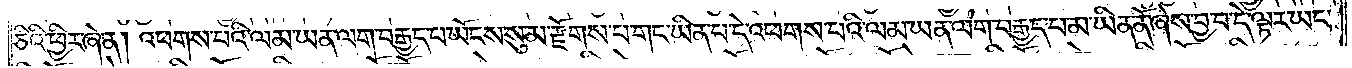ཅིའི་ཕྱིར་ཞེ་ན། འཕགས་པའི་ལམ་ཡན་ལག་བརྒྱད་པ་ཡོངས་སུ་མ་རྫོགས་པ་གང་ཡིན་པ་དེ་འཕགས་པའི་ལམ་ཡན་ལག་བརྒྱད་པ་མ་ཡིན་ནོ་ཞེས་བྱ་བ་དེ་ལྟར་ཡང་
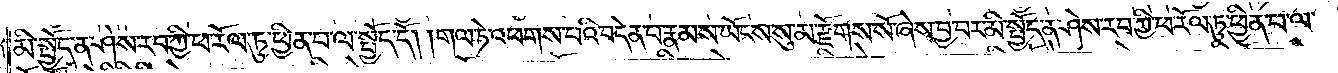མི་སྤྱོད་ན་ཤེས་རབ་ཀྱི་ཕ་རོལ་ཏུ་ཕྱིན་པ་ལ་སྤྱོད་དོ། །གལ་ཏེ་འཕགས་པའི་བདེན་པ་རྣམས་ཡོངས་སུ་མ་རྫོགས་སོ་ཞེས་བྱ་བར་མི་སྤྱོད་ན་ཤེས་རབ་ཀྱི་ཕ་རོལ་ཏུ་ཕྱིན་པ་ལ་
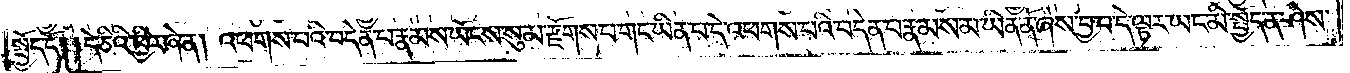སྤྱོད་དོ། །དེ་ཅིའི་ཕྱིར་ཞེ་ན། འཕགས་པའི་བདེན་པ་རྣམས་ཡོངས་སུ་མ་རྫོགས་པ་གང་ཡིན་པ་དེ་འཕགས་པའི་བདེན་པ་རྣམས་མ་ཡིན་ནོ་ཞེས་བྱ་བ་དེ་ལྟར་ཡང་མི་སྤྱོད་ན་ཤེས་
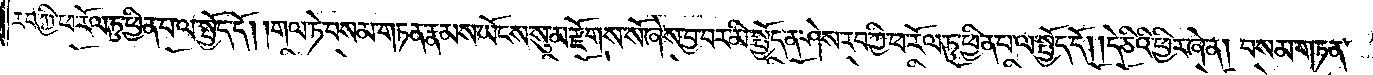རབ་ཀྱི་ཕ་རོལ་ཏུ་ཕྱིན་པ་ལ་སྤྱོད་དོ། །གལ་ཏེ་བསམ་གཏན་རྣམས་ཡོངས་སུ་མ་རྫོགས་སོ་ཞེས་བྱ་བར་མི་སྤྱོད་ན་ཤེས་རབ་ཀྱི་ཕ་རོལ་ཏུ་ཕྱིན་པ་ལ་སྤྱོད་དོ། །དེ་ཅིའི་ཕྱིར་ཞེ་ན། བསམ་གཏན་
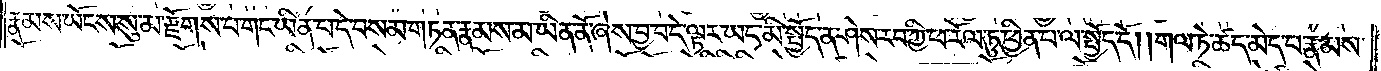རྣམས་ཡོངས་སུ་མ་རྫོགས་པ་གང་ཡིན་པ་དེ་བསམ་གཏན་རྣམས་མ་ཡིན་ནོ་ཞེས་བྱ་བ་དེ་ལྟར་ཡང་མི་སྤྱོད་ན་ཤེས་རབ་ཀྱི་ཕ་རོལ་ཏུ་ཕྱིན་པ་ལ་སྤྱོད་དོ། །གལ་ཏེ་ཚད་མེད་པ་རྣམས་
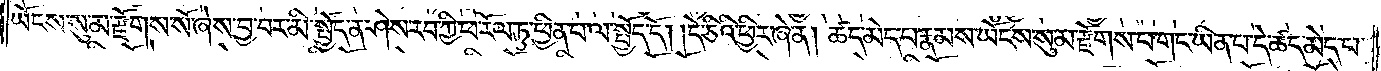ཡོངས་སུ་མ་རྫོགས་སོ་ཞེས་བྱ་བར་མི་སྤྱོད་ན་ཤེས་རབ་ཀྱི་ཕ་རོལ་ཏུ་ཕྱིན་པ་ལ་སྤྱོད་དོ། །དེ་ཅིའི་ཕྱིར་ཞེ་ན། ཚད་མེད་པ་རྣམས་ཡོངས་སུ་མ་རྫོགས་པ་གང་ཡིན་པ་དེ་ཚད་མེད་པ་
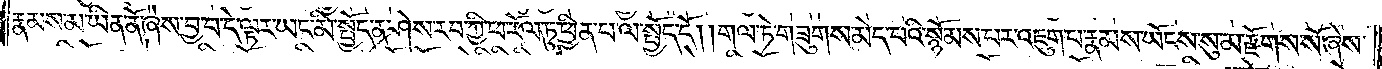རྣམས་མ་ཡིན་ནོ་ཞེས་བྱ་བ་དེ་ལྟར་ཡང་མི་སྤྱོད་ན་ཤེས་རབ་ཀྱི་ཕ་རོལ་ཏུ་ཕྱིན་པ་ལ་སྤྱོད་དོ། །གལ་ཏེ་གཟུགས་མེད་པའི་སྙོམས་པར་འཇུག་པ་རྣམས་ཡོངས་སུ་མ་རྫོགས་སོ་ཞེས་
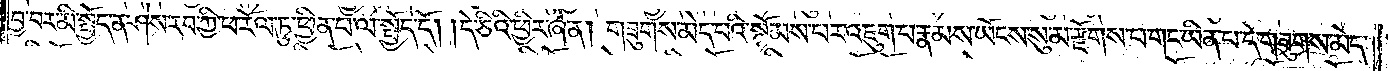བྱ་བར་མི་སྤྱོད་ན་ཤེས་རབ་ཀྱི་ཕ་རོལ་ཏུ་ཕྱིན་པ་ལ་སྤྱོད་དོ། །དེ་ཅིའི་ཕྱིར་ཞེ་ན། གཟུགས་མེད་པའི་སྙོམས་པར་འཇུག་པ་རྣམས་ཡོངས་སུ་མ་རྫོགས་པ་གང་ཡིན་པ་དེ་གཟུགས་མེད་
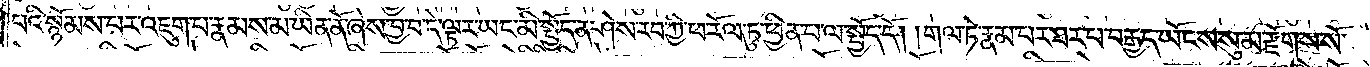པའི་སྙོམས་པར་འཇུག་པ་རྣམས་མ་ཡིན་ནོ་ཞེས་བྱ་བ་དེ་ལྟར་ཡང་མི་སྤྱོད་ན་ཤེས་རབ་ཀྱི་ཕ་རོལ་ཏུ་ཕྱིན་པ་ལ་སྤྱོད་དོ། །གལ་ཏེ་རྣམ་པར་ཐར་པ་བརྒྱད་ཡོངས་སུ་མ་རྫོགས་སོ་
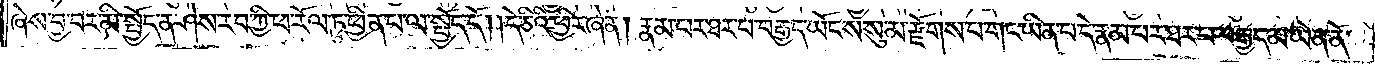ཞེས་བྱ་བར་མི་སྤྱོད་ན་ཤེས་རབ་ཀྱི་ཕ་རོལ་ཏུ་ཕྱིན་པ་ལ་སྤྱོད་དོ། །དེ་ཅིའི་ཕྱིར་ཞེ་ན། རྣམ་པར་ཐར་པ་བརྒྱད་ཡོངས་སུ་མ་རྫོགས་པ་གང་ཡིན་པ་དེ་རྣམ་པར་ཐར་པ་བརྒྱད་མ་ཡིན་ནོ་
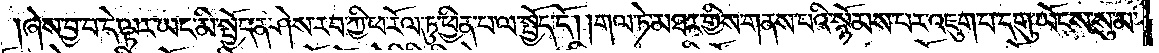ཞེས་བྱ་བ་དེ་ལྟར་ཡང་མི་སྤྱོད་ན་ཤེས་རབ་ཀྱི་ཕ་རོལ་ཏུ་ཕྱིན་པ་ལ་སྤྱོད་དོ། །གལ་ཏེ་མཐར་གྱིས་གནས་པའི་སྙོམས་པར་འཇུག་པ་དགུ་ཡོངས་སུ་མ་
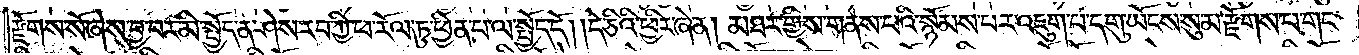རྫོགས་སོ་ཞེས་བྱ་བར་མི་སྤྱོད་ན་ཤེས་རབ་ཀྱི་ཕ་རོལ་ཏུ་ཕྱིན་པ་ལ་སྤྱོད་དོ། །དེ་ཅིའི་ཕྱིར་ཞེ་ན། མཐར་གྱིས་གནས་པའི་སྙོམས་པར་འཇུག་པ་དགུ་ཡོངས་སུ་མ་རྫོགས་པ་གང་
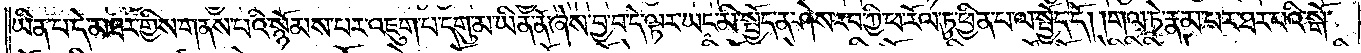ཡིན་པ་དེ་མཐར་གྱིས་གནས་པའི་སྙོམས་པར་འཇུག་པ་དགུ་མ་ཡིན་ནོ་ཞེས་བྱ་བ་དེ་ལྟར་ཡང་མི་སྤྱོད་ན་ཤེས་རབ་ཀྱི་ཕ་རོལ་ཏུ་ཕྱིན་པ་ལ་སྤྱོད་དོ། །གལ་ཏེ་རྣམ་པར་ཐར་པའི་སྒོ་
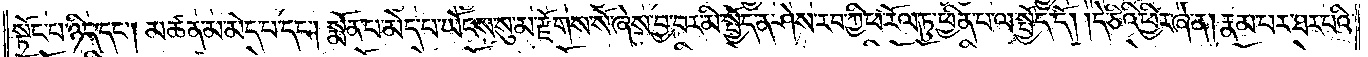སྟོང་པ་ཉིད་དང༌། མཚན་མ་མེད་པ་དང༌། སྨོན་པ་མེད་པ་ཡོངས་སུ་མ་རྫོགས་སོ་ཞེས་བྱ་བར་མི་སྤྱོད་ན་ཤེས་རབ་ཀྱི་ཕ་རོལ་ཏུ་ཕྱིན་པ་ལ་སྤྱོད་དོ། །དེ་ཅིའི་ཕྱིར་ཞེ་ན། རྣམ་པར་ཐར་པའི་
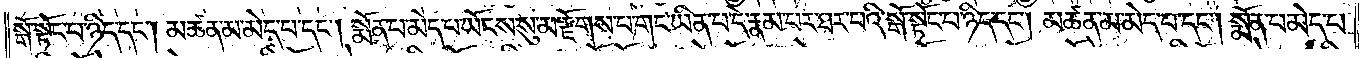སྒོ་སྟོང་པ་ཉིད་དང༌། མཚན་མ་མེད་པ་དང༌། སྨོན་པ་མེད་པ་ཡོངས་སུ་མ་རྫོགས་པ་གང་ཡིན་པ་དེ་རྣམ་པར་ཐར་པའི་སྒོ་སྟོང་པ་ཉིད་དང༌། མཚན་མ་མེད་པ་དང༌། སྨོན་པ་མེད་པ་
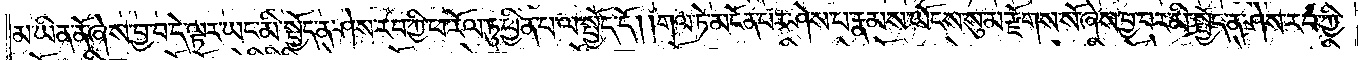མ་ཡིན་ནོ་ཞེས་བྱ་བ་དེ་ལྟར་ཡང་མི་སྤྱོད་ན་ཤེས་རབ་ཀྱི་ཕ་རོལ་ཏུ་ཕྱིན་པ་ལ་སྤྱོད་དོ། །གལ་ཏེ་མངོན་པར་ཤེས་པ་རྣམས་ཡོངས་སུ་མ་རྫོགས་སོ་ཞེས་བྱ་བར་མི་སྤྱོད་ན་ཤེས་རབ་ཀྱི་
